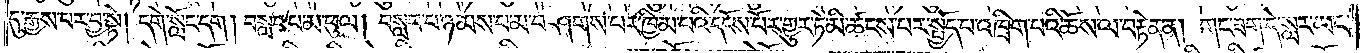དུ་རྒྱས་པར་བྱ་སྟེ། དགེ་སློང་དག། བསླབ་པ་མ་ཕུལ། བསླབ་པ་ཉམས་པ་མ་བཤགས་པར་ཁྱིམ་པའི་དངོས་པོར་གྱུར་ཏེ་མི་ཚངས་པར་སྤྱོད་པ་འཁྲིག་པའི་ཆོས་ལ་བརྟེན་ན། གང་ཟག་དེ་སླར་ཡང་
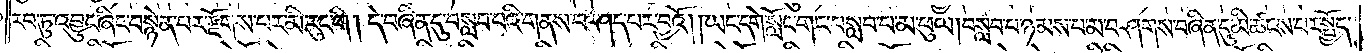རབ་ཏུ་འབྱུང་ཞིང་བསྙེན་པར་རྫོགས་པར་མི་རུང་གི། དེ་བཞིན་དུ་བསླབ་པའི་གནས་བཤད་པར་བྱའོ། །ཡང་དགེ་སློང་གང་བསླབ་པ་མ་ཕུལ། བསླབ་པ་ཉམས་པ་མ་བཤགས་བཞིན་དུ་མི་ཚངས་པར་སྤྱོད་
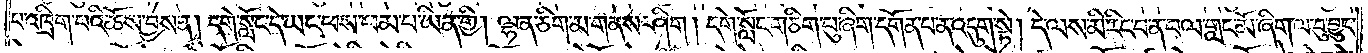པ་འཁྲིག་པའི་ཆོས་བྱས་ན། དགེ་སློང་དེ་ཡང་ཕས་ཕམ་པ་ཡིན་གྱི། ལྷན་ཅིག་མ་གནས་ཤིག །དགེ་སློང་གཅིག་པུ་ཞིག་དགོན་པ་ན་འདུག་སྟེ། དེ་ལས་མི་རིང་བ་ན་བལ་གླང་མོ་ཞིག་ལ་བུ་བྱུང་
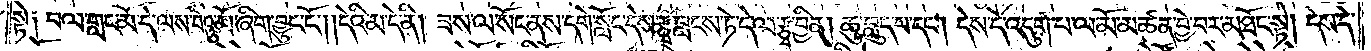སྟེ༑ བལ་གླང་མོ་དེ་ལས་བེའུ་མོ་ཞིག་བྱུང་ངོ༌། །དེའི་མ་དེ་ནི། ཟས་ལ་སོང་ནས་དགེ་སློང་དེས་རྩྭ་བླངས་ཏེ་དེ་ལ་རྩྭ་བྱིན། ཆུ་བླུད་པ་དང༌། དེས་དེ་འདུག་པ་ལ་མོ་མཚན་བྱེ་བར་མཐོང་སྟེ། དེས་དེ་
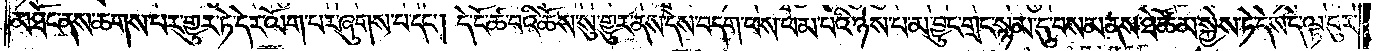མཐོང་ནས་ཆགས་པར་གྱུར་ཏེ་དེར་ལོག་པར་ཞུགས་པ་དང༌། དེ་ངོ་ཚ་བའི་ཆོས་སུ་གྱུར་ནས་དེས་བདག་ཕས་ཕམ་པའི་ཉེས་པ་མ་བྱུང་གྲང་སྙམ་དུ་བསམ་ནས་ཐེ་ཚོམ་སྐྱེས་ཏེ་དེས་དེ་ལྟ་བུར་
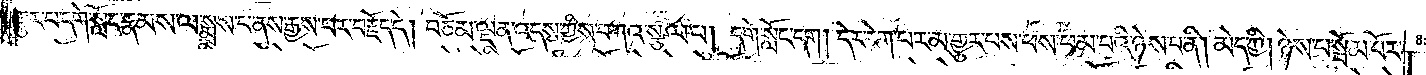གྱུར་པ་དགེ་སློང་རྣམས་ལ་སྨྲས་པ་ནས་རྒྱས་པར་བརྗོད་དེ། བཅོམ་ལྡན་འདས་ཀྱིས་བཀའ་སྩལ་པ། དགེ་སློང་དག །དེར་རེག་པར་མ་གྱུར་པས་ཕས་ཕམ་པའི་ཉེས་པ་ནི། མེད་ཀྱི། ཉེས་པ་སྦོམ་པོར་
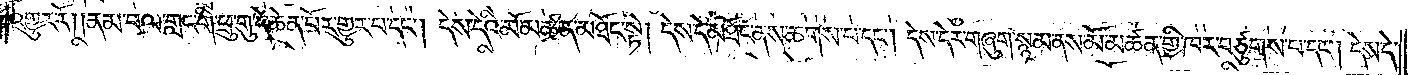འགྱུར་རོ། །ནམ་བལ་གླང་གི་ཕྲུ་གུ་དེ་ཆེན་པོར་གྱུར་པ་དང༌། དེས་དེའི་མོ་མཚན་མཐོང་སྟེ། དེས་དེ་མཐོང་ནས་ཆགས་པ་དང༌། དེས་དེར་གཞུག་སྙམ་ནས་མོ་མཚན་གྱི་ཁར་བཙུགས་པ་དང༌། དེས་དེ་
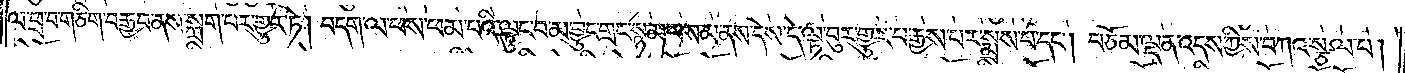ལ་ཕྲ་བ་གཅིག་བརྒྱབ་ནས་སྐྲག་པར་གྱུར་ཏེ། བདག་ལ་ཕས་ཕམ་པའི་ལྟུང་བ་མ་བྱུང་གྲང་སྙམ་བསམ་ནས་དེས་དེ་ལྟ་བུར་གྱུར་པ་རྒྱས་པར་སྨྲས་པ་དང༌། བཅོམ་ལྡན་འདས་ཀྱིས་བཀའ་སྩལ་པ།
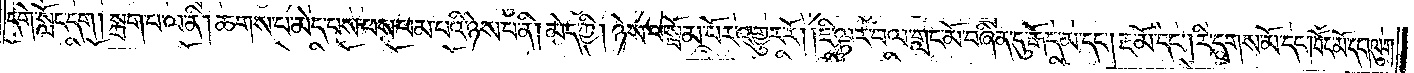དགེ་སློང་དག །སྐྲག་པ་ལ་ནི། ཆགས་པ་མེད་པས་ཕས་ཕམ་པའི་ཉེས་པ་ནི། མེད་ཀྱི། ཉེས་པ་སྦོམ་པོར་འགྱུར་རོ། །ཇི་ལྟར་བལ་གླང་མོ་བཞིན་དུ་རྒོད་མ་དང༌། རྔ་མོ་དང༌། རི་དྭགས་མོ་དང་ཁོང་མོ་དག་ལུག་
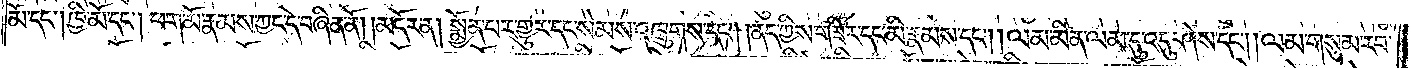མོ་དང༌། ཁྱི་མོ་དང༌། ཕག་མོ་རྣམས་ཀྱང་དེ་བཞིན་ནོ། །མདོར་ན། སྨྱོན་པར་གྱུར་དང་སེམས་འཁྲུགས་པ་དང༌། །ནད་ཀྱིས་གཟིར་དང་མི་རྣམས་དང༌། །ལམ་མིན་ལམ་དུ་འདུ་ཤེས་དང༌། །ལམ་གསུམ་རབ་
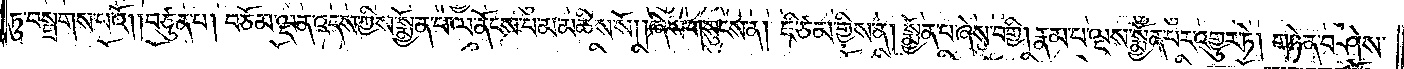ཏུ་བསྒྲགས་པའོ། །བཙུན་པ། བཅོམ་ལྡན་འདས་ཀྱིས་སྨྱོན་པ་ལ་ནོངས་པ་མ་མཆིས་སོ། །ཞེས་གསུངས་ན། ཇི་ཙམ་གྱིས་ན། སྨྱོན་པ་ཞེས་བགྱི། རྣམ་པ་ལྔས་སྨྱོན་པར་འགྱུར་ཏེ། གཉེན་བཤེས་
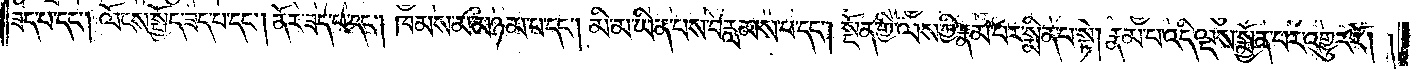ཟད་པ་དང༌། ལོངས་སྤྱོད་ཟད་པ་དང༌། ནོར་ཟད་པ་དང༌། ཁམས་མ་མཉམ་པ་དང༌། མི་མ་ཡིན་པས་བརླམས་པ་དང༌། སྔོན་གྱི་ལས་ཀྱི་རྣམ་པར་སྨིན་པ་སྟེ། རྣམ་པ་འདི་ལྔས་སྨྱོན་པར་འགྱུར་རོ། །
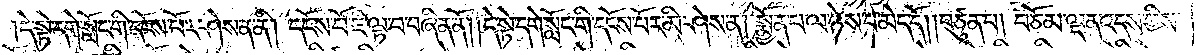དེ་སྟེ་དགེ་སློང་གི་དངོས་པོར་ཤེས་ན་ནི། དངོས་པོ་ཇི་ལྟ་བ་བཞིན་ནོ། །དེ་སྟེ་དགེ་སློང་གི་དངོས་པོར་མི་ཤེས་ན། སྨྱོན་པ་ལ་ཉེས་པ་མེད་དོ། །བཙུན་པ། བཅོམ་ལྡན་འདས་ཀྱིས་
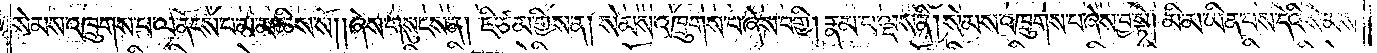སེམས་འཁྲུགས་པ་ལ་ནོངས་པ་མ་མཆིས་སོ། །ཞེས་གསུངས་ན། ཇི་ཙམ་གྱིས་ན། སེམས་འཁྲུགས་པ་ཞེས་བགྱི། རྣམ་པ་ལྔས་ནི། སེམས་འཁྲུགས་པ་ཞེས་བྱ་སྟེ། མི་མ་ཡིན་པས་དེའི་སེམས་
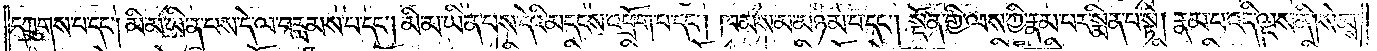དཀྲུགས་པ་དང༌། མི་མ་ཡིན་པས་དེ་ལ་བརླམས་པ་དང༌། མི་མ་ཡིན་པས་དེའི་མདངས་འཕྲོག་པ་དང༌། ཁམས་མ་མཉམ་པ་དང༌། སྔོན་གྱི་ལས་ཀྱི་རྣམ་པར་སྨིན་པ་སྟེ། རྣམ་པ་འདི་ལྔས་ནི། སེམས་
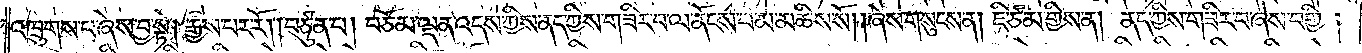འཁྲུགས་པ་ཞེས་བྱ་སྟེ། རྒྱས་པར་རོ། །བཙུན་པ། བཅོམ་ལྡན་འདས་ཀྱིས་ནད་ཀྱིས་གཟིར་བ་ལ་ནོངས་པ་མ་མཆིས་སོ། །ཞེས་གསུངས་ན། ཇི་ཙམ་གྱིས་ན། ནད་ཀྱིས་གཟིར་བ་ཞེས་བགྱི།
